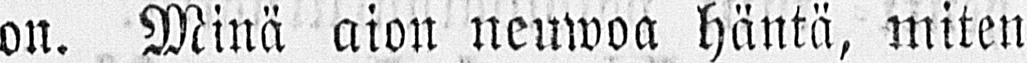on. Minä aion neuwoa häntä, miten
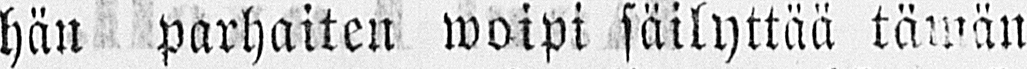hän parhaiten woipi säilyttää tämän
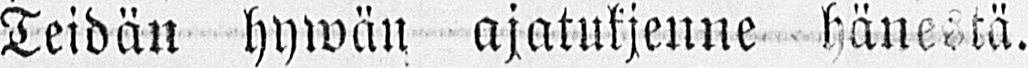Teidän hywän ajatuksenne hänestä.
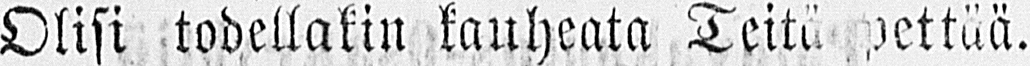Olisi todellakin kauheata Teitää pettää.
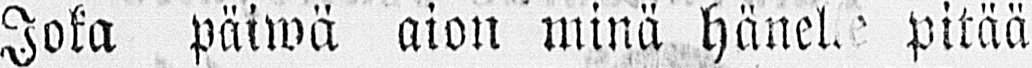Joka päiwä aion minä hänelle pitää
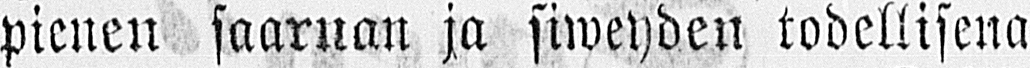pienen saarnan ja siweyden todellisena
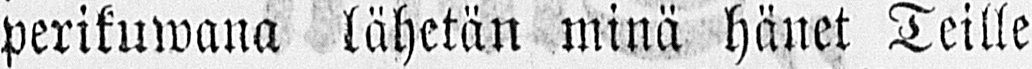perikuwana lähetän minä hänet Teille
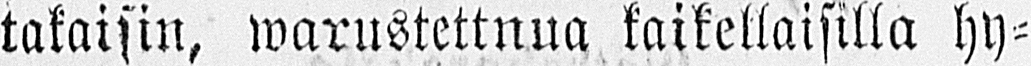takaisin, warustettnua kaikellaisilla hy-
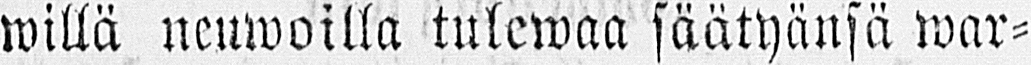willä neuwoilla tulewaa säätyänsä war-
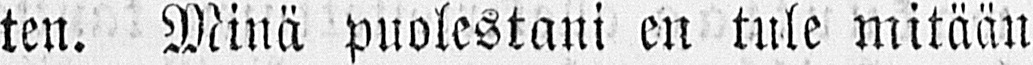ten. Minä puolestani en tule mitään
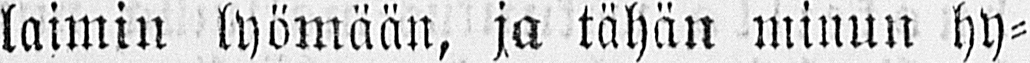laimin lyömään, ja tähän minun hy-
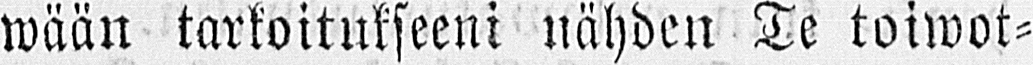wään tarkoitukseeni nähden Te toiwot-
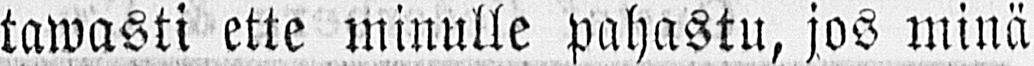tawasti ette minulle pahastu, jos minä
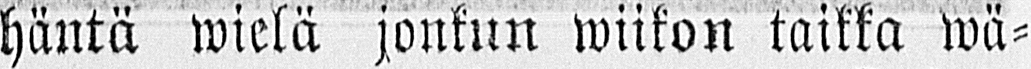häntä wielä jonkun wiikon taikka wä-
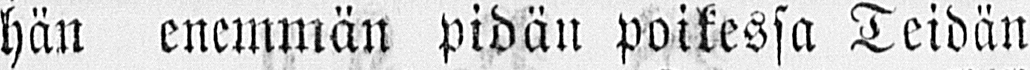hän enemmän pidän poikessa Teidän
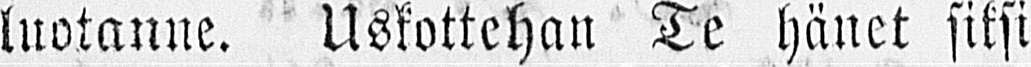luotanne. Uskottehan Te hänet siksi
